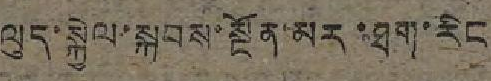ལུད་སྐྱེལ་སྐབས་སྔོན་མར་ཐག་རིང
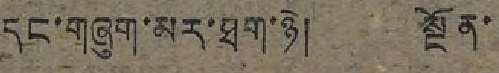དང་གཞུག་མར་ཐག་ཉེ། སྔོན་
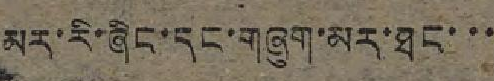མར་རི་ཞིང་དང་གཞུག་མར་ཐང་་་
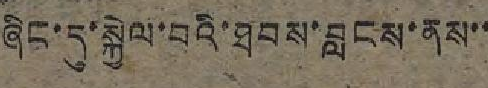ཞིང་དུ་སྐྱེལ་བའི་ཐབས་བླངས་ནས་་
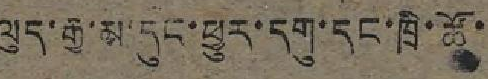ལུད་རྒྱ་མ་དུང་ཕྱུར་དགུ་དང་ཁྲི་ཚོ་
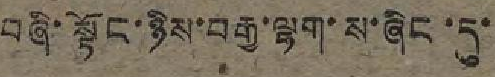བཞི་སྟོང་ཉིས་བརྒྱ་ལྷག་ས་ཞིང་དུ་
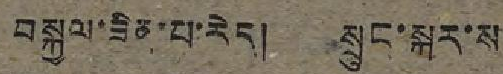བསྐྱལ་ཟིན་པ་རེད། སྲུང་སྐར་ས
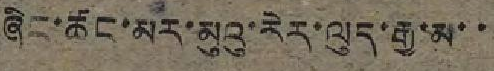ཞིང་ཚང་མར་མུའུ་རེར་ལུད་རྒྱ་མ་་
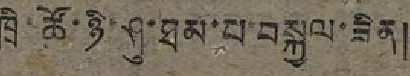ཁྲི་ཚོ་ཉི་ཤུ་ཐམ་པ་བསྐྱལ་ཟིན།
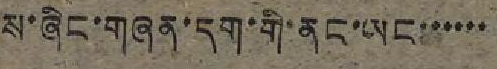ས་ཞིང་གཞན་དག་གི་ནང་ཡང་་་་་་
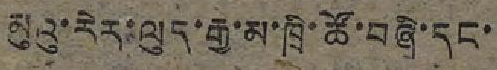མུའུ་རེར་ལུད་རྒྱ་མ་ཁྲི་ཚོ་བཞི་དང་
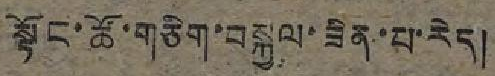སྟོང་ཚོ་གཅིག་བསྐྱལ་ཟིན་པ་རེད།
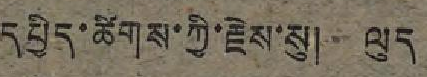དཔྱིད་ཚིགས་ཀྱི་རྗེས་སུ། ལུད
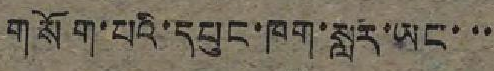གསོག་པའི་དཔུང་ཁག་སླར་ཡང་་་
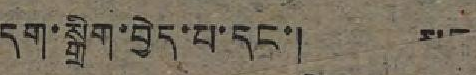དག་སྒྲེག་བྱེད་པ་དང་། མང
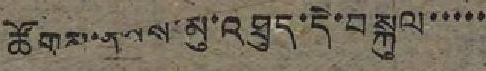ཚོགས་རྣམས་མུ་འཐུད་དེ་བསྐུལ་་་་་
